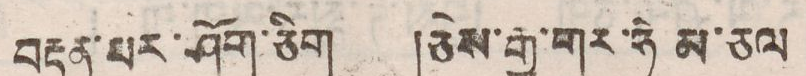བརྟན་པར་ཤོག་ཅིག །ཅེས་རྒྱ་གར་ཧེ མ་ཅལ
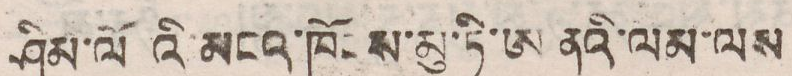ཤིམ་ལོའི་མངའ་ཁོངས་མུ་ཏི་ཨ ནའི་ལམ་ལས
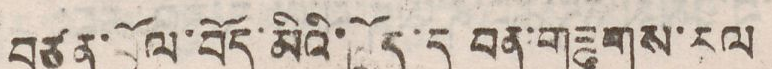བཙན་བྱོལ་བོད་མིའི་ཁྲོད་དུ བན་གཟུགས་རལ
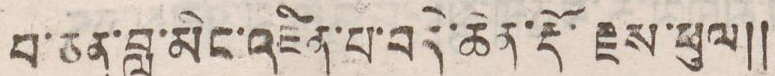བ་ཅན་བླ་མིང་འཛིན་པ་བདེ་ཆེན་རྡོ་རྗས་ཕུལ།།
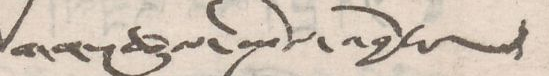གནས་ཚུལ་སྤེལ་འབྱོར།
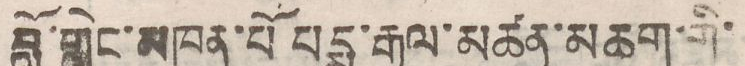བློ་གླེང་མཁན་པོ པདྨ་རྒྱལ་མཚན་མཆག་གི་
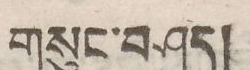གསུང་བཤད།
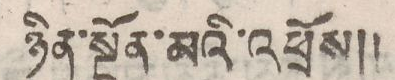ཉིན་སྔོན་མའི་འཕྲོས།།
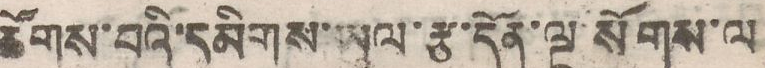ཚོགས་པའི་དམིགས་ཡུལ་རྩ་དོན་ལྔ་སོགས་ལ
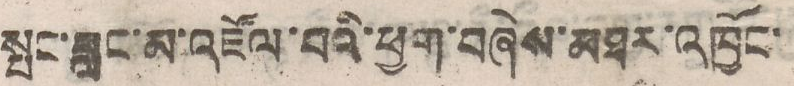སྤང་བླང་མ་འཇོལ་པའི་ཕྱག་བཞེས་མཐར་འཁྱོང་
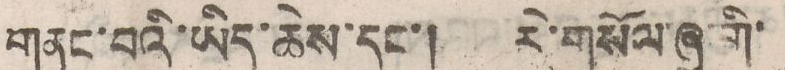གནང་པའི་ཡིད་ཆེས་དང་། རེ་གསོལ་ཞུ་གི་
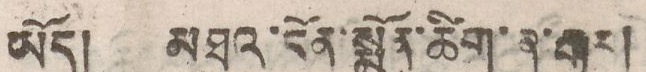ཡོད། མཐའ་དོན་སྨོན་ཚོག་ཞུ་རྒྱུར།
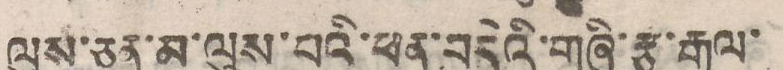ལུས་ཅན་མ་ལུས་པའི་ཕན་བདེའི་གཞི་རྩ་རྒྱལ་
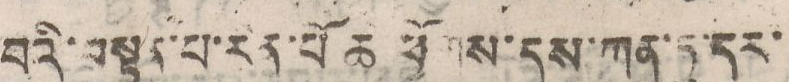བའི་བསྟན་པ་རན་པོ ཆ ཕྱོགས་དུས་ཀུན་ཏུ་དར་
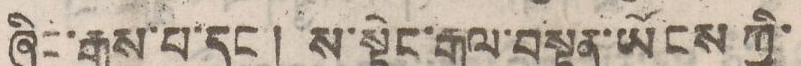ཞིང་རྒྱས་པ་དང ། ས་སྟེང་རྒྱལ་བསྟན་ཡོངས ཀྱི་
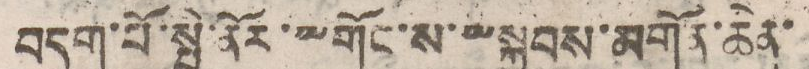བདག་པོ་སྤྱི་ནོར་༸གོང་ས་༸སྐྱབས་མགོན་ཆེན་
